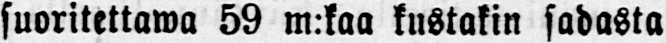suoritettawa 59 m:kaa kustakin sadasta
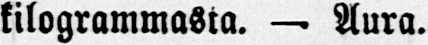kilogrammasta. — Aura.
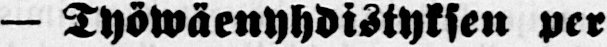— Työwäenyhdistyksen per-
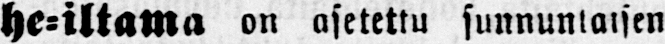he-iltama on asetettu sunnuntaisen
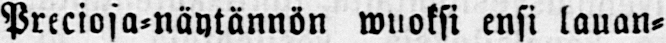Preciosa-näytännön wuoksi ensi lauan-
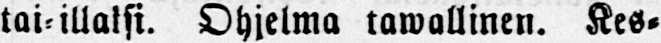tai-illatsi. Ohjelma tawallinen. Kes-
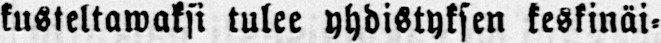kusteltawaksi tulee yhdistyksen keskinäi-
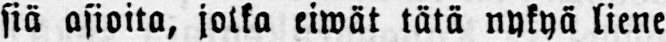siä asioita, jotka eiwät tätä nykyä liene
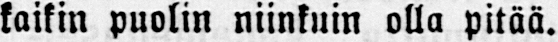kaikin puolin niinkuin olla pitää.
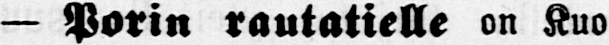— Porin rautatielle on Kuo-
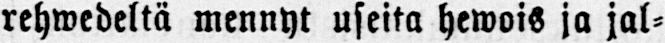rehwedeltä mennyt useita hewois ja jal-
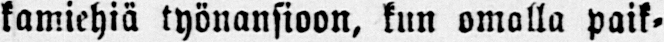kamiehiä työnansioon, kun omalla paik-
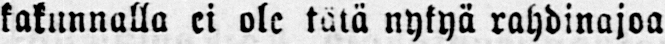kakunnalla ei ole tätä nykyä rahdinajoa
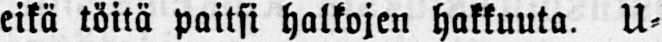eikä töitä paitsi halkojen hakkuuta. U-
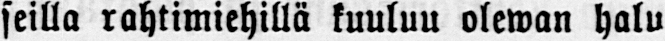seilla rahtimiehillä kuuluu olewan halu
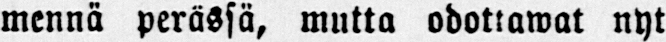mennä perässä, mutta odottawat nyt
